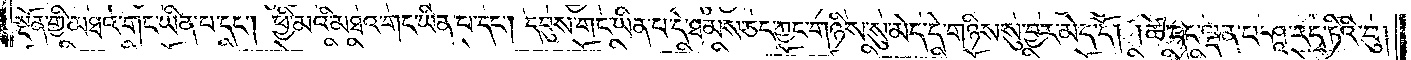སྔོན་གྱི་མཐའ་གང་ཡིན་པ་དང༌། ཕྱི་མའི་མཐའ་གང་ཡིན་པ་དང༌། དབུས་གང་ཡིན་པ་དེ་ཐམས་ཅད་ཀྱང་གཉིས་སུ་མེད་དེ་གཉིས་སུ་བྱར་མེད་དོ། །ཚེ་དང་ལྡན་པ་ཤཱ་རདྭ་ཏིའི་བུ།
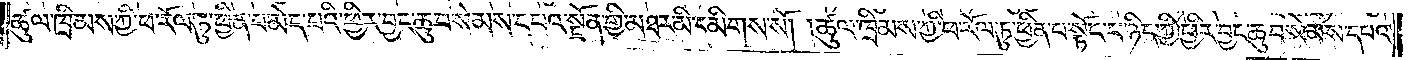ཚུལ་ཁྲིམས་ཀྱི་ཕ་རོལ་ཏུ་ཕྱིན་པ་མེད་པའི་ཕྱིར་བྱང་ཆུབ་སེམས་དཔའ་སྔོན་གྱི་མཐར་མི་དམིགས་སོ། །ཚུལ་ཁྲིམས་ཀྱི་ཕ་རོལ་ཏུ་ཕྱིན་པ་སྟོང་པ་ཉིད་ཀྱི་ཕྱིར་བྱང་ཆུབ་སེམས་དཔའ་
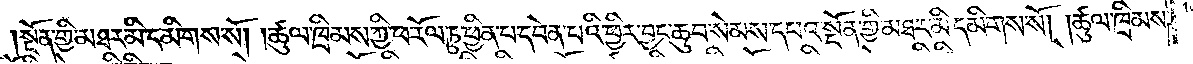སྔོན་གྱི་མཐར་མི་དམིགས་སོ། །ཚུལ་ཁྲིམས་ཀྱི་ཕ་རོལ་ཏུ་ཕྱིན་པ་དབེན་པའི་ཕྱིར་བྱང་ཆུབ་སེམས་དཔའ་སྔོན་གྱི་མཐར་མི་དམིགས་སོ། །ཚུལ་ཁྲིམས་
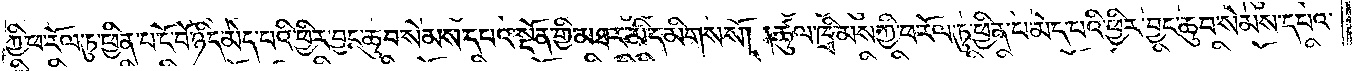ཀྱི་ཕ་རོལ་ཏུ་ཕྱིན་པ་ངོ་བོ་ཉིད་མེད་པའི་ཕྱིར་བྱང་ཆུབ་སེམས་དཔའ་སྔོན་གྱི་མཐར་མི་དམིགས་སོ། །ཚུལ་ཁྲིམས་ཀྱི་ཕ་རོལ་ཏུ་ཕྱིན་པ་མེད་པའི་ཕྱིར་བྱང་ཆུབ་སེམས་དཔའ་
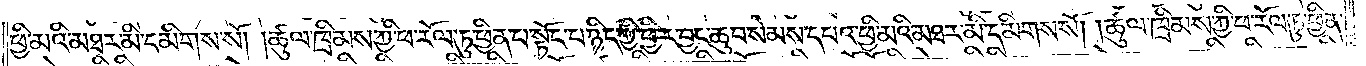ཕྱི་མའི་མཐར་མི་དམིགས་སོ། །ཚུལ་ཁྲིམས་ཀྱི་ཕ་རོལ་ཏུ་ཕྱིན་པ་སྟོང་པ་ཉིད་ཀྱི་ཕྱིར་བྱང་ཆུབ་སེམས་དཔའ་ཕྱི་མའི་མཐར་མི་དམིགས་སོ། །ཚུལ་ཁྲིམས་ཀྱི་ཕ་རོལ་ཏུ་ཕྱིན་
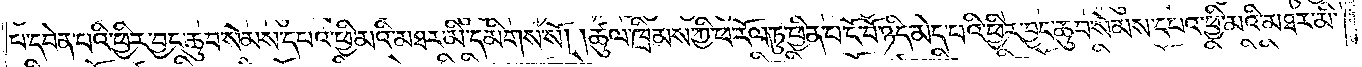པ་དབེན་པའི་ཕྱིར་བྱང་ཆུབ་སེམས་དཔའ་ཕྱི་མའི་མཐར་མི་དམིགས་སོ། །ཚུལ་ཁྲིམས་ཀྱི་ཕ་རོལ་ཏུ་ཕྱིན་པ་ངོ་བོ་ཉིད་མེད་པའི་ཕྱིར་བྱང་ཆུབ་སེམས་དཔའ་ཕྱི་མའི་མཐར་མི་
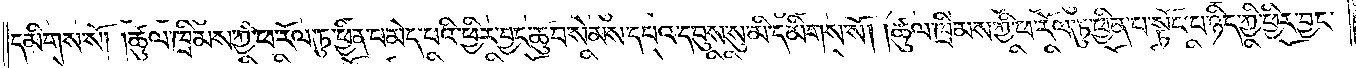དམིགས་སོ། །ཚུལ་ཁྲིམས་ཀྱི་ཕ་རོལ་ཏུ་ཕྱིན་པ་མེད་པའི་ཕྱིར་བྱང་ཆུབ་སེམས་དཔའ་དབུས་སུ་མི་དམིགས་སོ། །ཚུལ་ཁྲིམས་ཀྱི་ཕ་རོལ་ཏུ་ཕྱིན་པ་སྟོང་པ་ཉིད་ཀྱི་ཕྱིར་བྱང་
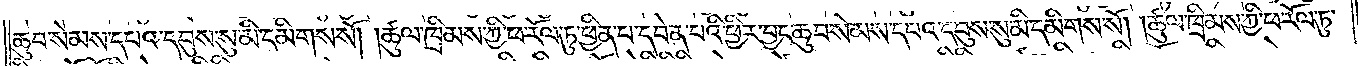ཆུབ་སེམས་དཔའ་དབུས་སུ་མི་དམིགས་སོ། །ཚུལ་ཁྲིམས་ཀྱི་ཕ་རོལ་ཏུ་ཕྱིན་པ་དབེན་པའི་ཕྱིར་བྱང་ཆུབ་སེམས་དཔའ་དབུས་སུ་མི་དམིགས་སོ། །ཚུལ་ཁྲིམས་ཀྱི་ཕ་རོལ་ཏུ་
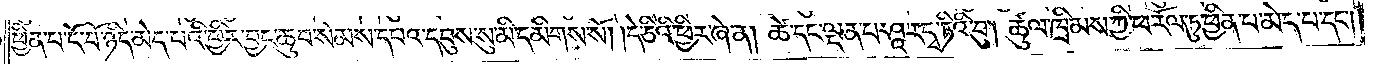ཕྱིན་པ་ངོ་བོ་ཉིད་མེད་པའི་ཕྱིར་བྱང་ཆུབ་སེམས་དཔའ་དབུས་སུ་མི་དམིགས་སོ། །དེ་ཅིའི་ཕྱིར་ཞེ་ན། ཚེ་དང་ལྡན་པ་ཤཱ་རདྭ་ཏིའི་བུ། ཚུལ་ཁྲིམས་ཀྱི་ཕ་རོལ་ཏུ་ཕྱིན་པ་མེད་པ་དང༌།
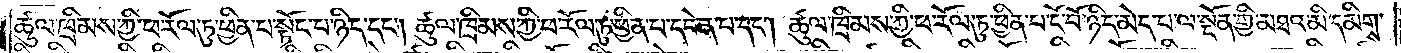ཚུལ་ཁྲིམས་ཀྱི་ཕ་རོལ་ཏུ་ཕྱིན་པ་སྟོང་པ་ཉིད་དང༌། ཚུལ་ཁྲིམས་ཀྱི་ཕ་རོལ་ཏུ་ཕྱིན་པ་དབེན་པ་དང༌། ཚུལ་ཁྲིམས་ཀྱི་ཕ་རོལ་ཏུ་ཕྱིན་པ་ངོ་བོ་ཉིད་མེད་པ་ལ་སྔོན་གྱི་མཐའ་མི་དམིགས་
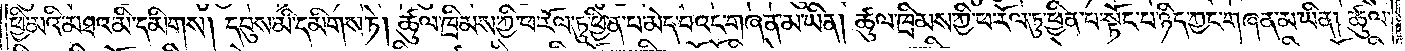ཕྱི་མའི་མཐའ་མི་དམིགས། དབུས་མི་དམིགས་ཏེ། ཚུལ་ཁྲིམས་ཀྱི་ཕ་རོལ་ཏུ་ཕྱིན་པ་མེད་པའང་གཞན་མ་ཡིན། ཚུལ་ཁྲིམས་ཀྱི་ཕ་རོལ་ཏུ་ཕྱིན་པ་སྟོང་པ་ཉིད་ཀྱང་གཞན་མ་ཡིན། ཚུལ་
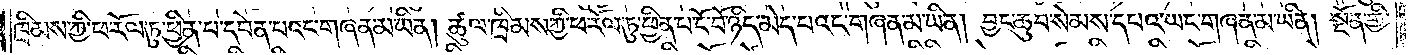ཁྲིམས་ཀྱི་ཕ་རོལ་ཏུ་ཕྱིན་པ་དབེན་པའང་གཞན་མ་ཡིན། ཚུལ་ཁྲིམས་ཀྱི་ཕ་རོལ་ཏུ་ཕྱིན་པ་ངོ་བོ་ཉིད་མེད་པའང་གཞན་མ་ཡིན། བྱང་ཆུབ་སེམས་དཔའ་ཡང་གཞན་མ་ཡིན། སྔོན་གྱི་
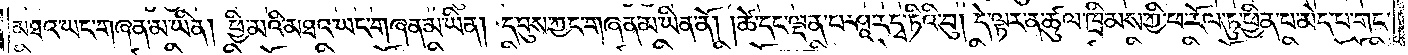མཐའ་ཡང་གཞན་མ་ཡིན། ཕྱི་མའི་མཐའ་ཡང་གཞན་མ་ཡིན། དབུས་ཀྱང་གཞན་མ་ཡིན་ནོ། །ཚེ་དང་ལྡན་པ་ཤཱ་རདྭ་ཏིའི་བུ། དེ་ལྟར་ན་ཚུལ་ཁྲིམས་ཀྱི་ཕ་རོལ་ཏུ་ཕྱིན་པ་མེད་པ་གང་
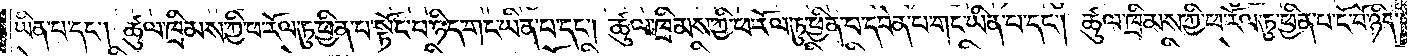ཡིན་པ་དང༌། ཚུལ་ཁྲིམས་ཀྱི་ཕ་རོལ་ཏུ་ཕྱིན་པ་སྟོང་པ་ཉིད་གང་ཡིན་པ་དང༌། ཚུལ་ཁྲིམས་ཀྱི་ཕ་རོལ་ཏུ་ཕྱིན་པ་དབེན་པ་གང་ཡིན་པ་དང༌། ཚུལ་ཁྲིམས་ཀྱི་ཕ་རོལ་ཏུ་ཕྱིན་པ་ངོ་བོ་ཉིད་
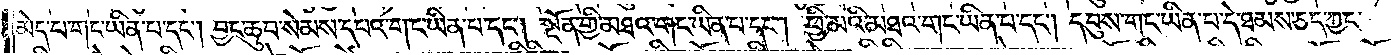མེད་པ་གང་ཡིན་པ་དང༌། བྱང་ཆུབ་སེམས་དཔའ་གང་ཡིན་པ་དང༌། སྔོན་གྱི་མཐའ་གང་ཡིན་པ་དང༌། ཕྱི་མའི་མཐའ་གང་ཡིན་པ་དང༌། དབུས་གང་ཡིན་པ་དེ་ཐམས་ཅད་ཀྱང་
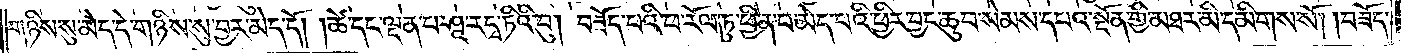གཉིས་སུ་མེད་དེ་གཉིས་སུ་བྱར་མེད་དོ། །ཚེ་དང་ལྡན་པ་ཤཱ་རདྭ་ཏིའི་བུ། བཟོད་པའི་ཕ་རོལ་ཏུ་ཕྱིན་པ་མེད་པའི་ཕྱིར་བྱང་ཆུབ་སེམས་དཔའ་སྔོན་གྱི་མཐར་མི་དམིགས་སོ། །བཟོད་
